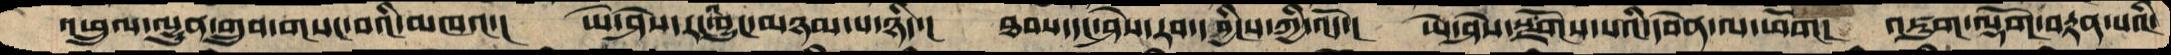འཕྲུལ་ལྷུན་གྲུབ་གསང་བའི་མཁའ་། ཡེ་ཤེས་རང་འབྱུང་མཉམ་པ་ཉིད་། ཐབས་དང་ཤེས་རབ་དབྱིངས་ཀྱི་འོད་། ཡེ་ཤེས་སྫོགས་པའི་དབེན་ལ་ཕོག། འཇུག་ལྡོག་བརྟན་པའི་
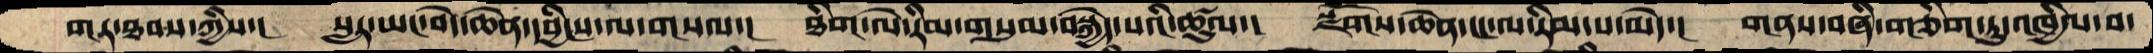གར་ཐབས་ཀྱིས་།   སླར་ཡང་བདེ་ཆེན་དབྱིངས་ལ་གསལ་།   ཐིག་ལེ་རིམ་གསུམ་བསྐྱེད་པའི་ཚུལ་།  སྫོགས་ཆེན་ངང་ལ་རིམ་པ་མེད་།  གནས་བཞི་གཅིག་ཏུ་འཁྱིལ་བ་
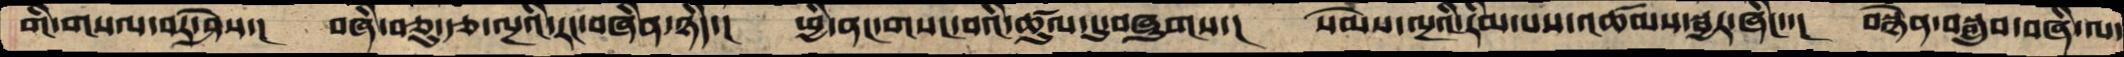གི་གསལ་བར་ཤེས་།    བཞི་བཅུ་རྩ་ལྔའི་རང་བཞིན་ཉིད་།   ཕྱི་ནང་གསང་བའི་ཚུལ་དུ་བཞུགས་།   སེམས་ལྔའི་རིམ་པས་འཚམས་སྦྱར་ཞིང་་།  བསྙེན་བསྒྲུབ་བཞི་ལ་
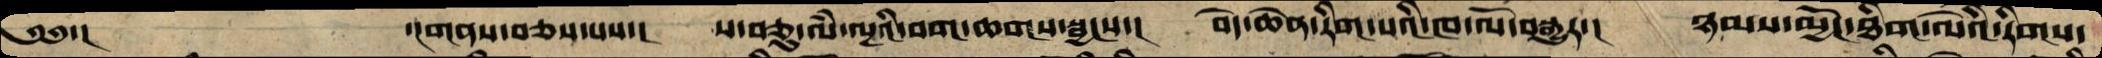༄༅་།                 ་།གནས་བཅས་པས་།   ས་བཅུ་ལཾ་ལྔའི་བག་ཆགས་སྦྱངས་།   བདེ་ཆེན་རིག་པའི་ཁ་ལོ་བསྒྱུར་།  ཉམས་མྱོང་ཐིག་ལེའི་རིགས་
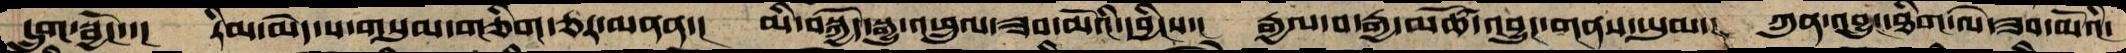དྲུག་སྦྱོང་་།  རིམ་མེད་ས་གསུམ་གཅིག་ཅར་མནན་།  མི་བསྐྱོད་སྒྱུ་འཕྲུལ་ཟབ་མོའི་དབྱིངས་།  རྒྱལ་བ་རྒྱ་མཚོ་འབྱུང་གནས་ཡུམ་།  ཀུན་འབྱུང་ཐིག་ལེ་ཟབ་མོའི་
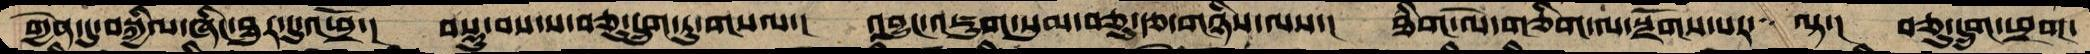གྱིན་དུ་བསྐྱིལ་ཞིང་ཐུར་དུ་འཕྲོ་།  བསྡུ་བས་ས་བཅུ་དྲུག་ཏུ་གསལ་།  འབྱུང་འཇུག་སུམབཅུ་རྩ་གཉིས་ལས་།  ཐིག་ལེ་གཅིག་ལ་སྫོགས་པར་་ ལྟ་།  བཅུ་དྲུག་ཕྲག་
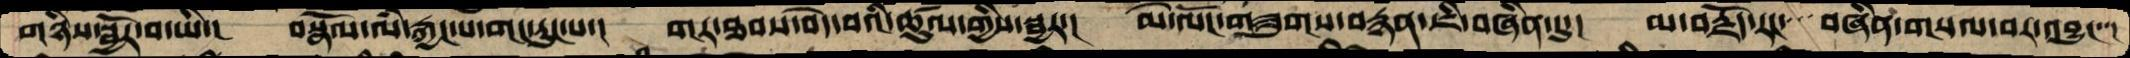གཉིས་སྦྱོར་བ་ཡི་།  བསྣོལ་ལཾ་རྒྱང་པ་གང་རུང་པ་།  གར་ཐབས་བདེ་བའི་ཚུལ་གྱིས་སྦྱར་། མེ་ལོང་གཟུགས་བརྙན་ཇི་བཞིན་དུ་།  མ་བརྗོད་རང་་་་བཞིན་གསལ་བར་འབྱུང་་།
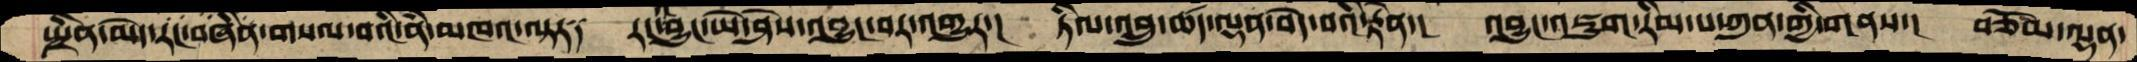སྤྲིན་མེད་རང་བཞིན་གསལ་བའི་ནཾ་མཁའ་ལྟར༑ རང་འབྱུང་ཡེ་ཤེས་འབྱུང་བར་འགྱུར་། ཏིལ་འབྲུ་ཚད་ལྡན་བདེ་བའི་རྟེན་། འབྱུང་འཇུག་རིམ་པ་ཀུན་གྱི་གནས་། བཅོམ་ལྡན་
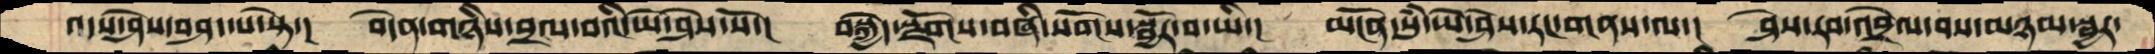འདས་ཤེས་བཤད་པ་སྟེ་།   བདེན་གཉིས་བྲལ་བའི་ཡེ་ཤེས་སོ་།   བསྐྱེད་སྫོགས་བཞི་སོགས་སྦྱོར་བ་ཡི་།  མངོན་སུཾ་ཡེ་ཤེས་རང་གནས་ལ་།  ཤེས་རབ་འབྲེལ་བས་མཉམ་སྦྱར་
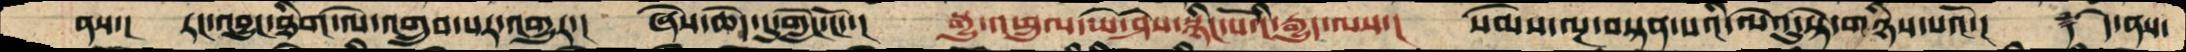ནས་།    རང་འབྱུང་ཐིག་ལེ་འགྲུབ་པར་འགྱུར་།  ཞེས་ཆེད་དུ་གླེང་ངོ་་།  སྒྱུ་འཕྲུལ་ཡེ་ཤེས་སྙིང་པོའི་རྒྱུད་ལས་།  སེམས་ལྔ་བསྟན་པའི་ལེའུ་སྟེ་གཉིས་པའོ་།   ༈ དེ་ནས་
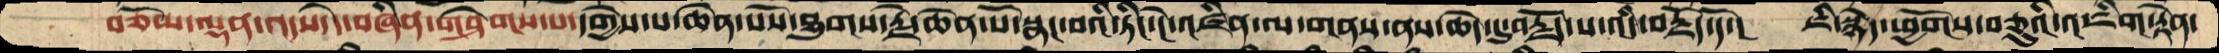བཅོམ་ལྡན་འདས་དེ་བཞིན་གཤེགས་པ་དགྱེས་པ་ཆེན་པོས་ཐུགས་རྗེ་ཆེན་པོ་སྣང་བའི་ཏིང་ངེ་འཛིན་ལ་གནས་ནས་ཆེད་དུ་བརྗོད་པ་འདི་བརྗོད་དོ་།  ཇི་སྙེད་ཕྱོགས་བཅུའི་འཇིག་རྟེན་
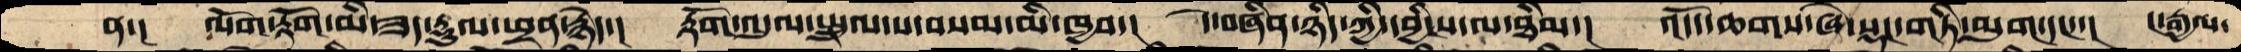ན་།    ལོག་རྟོག་མི་ཟད་རྡུལ་ཕྲན་རྙེད་།   རྟོག་འདུལ་སྤྲུལ་པ་བསམ་མི་ཁྱབ་།  དེ་བཞིན་ཉིད་ཀྱི་དབྱིངས་ལ་ཐིམ་།  འདོད་ཆགས་ཞེ་སྡང་གཏི་མུག་དང་་།  ང་རྒྱལ་
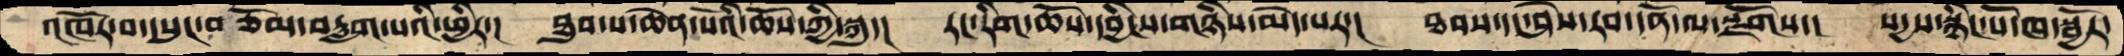འཁོར་བ་དཔུང་བཅོམ་བརླག་པའི་ཕྱིར་།  ཐུབ་པ་ཆེན་པོའི་ཆོས་ཀྱི་སྐུ་།  རང་རིག་ཆོས་དབྱིངས་གཉིས་མེད་པར་།  ཐབས་དང་ཤེས་རབ་དོན་ལ་སྫོགས་།  སདྱས་སྙིང་པོ་ཁ་སྦྱོར་
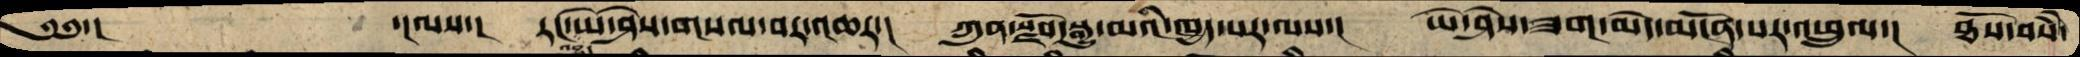༄༅་།    ་།ལས་། རང་འབྱུང་ཡེ་ཤེས་གསལ་བར་འཆར་། ཀུན་སྫོབ་སྒྱུ་མའི་ཁྱད་པར་ལས་། ཡེ་ཤེས་ཟག་མེད་མངོན་པར་འཕྲུལ་། ཐོས་བསཾ་
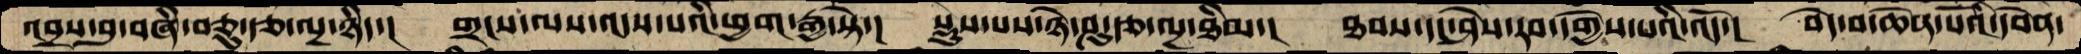འབྲས་བུ་བཞི་བཅུ་རྩ་ལྔ་ཉིད་།  གྲངས་ལས་འདས་པའི་ཕྱག་རྒྱ་སྟེ་།   སྡུས་པས་ཉེ་ཤུ་རྩ་ལྔ་ཐིམ་།  ཐབས་དང་ཤེས་རབ་དགྱེས་པའི་འོད་།  བདེ་བ་ཆེན་པོའི་དབེན་
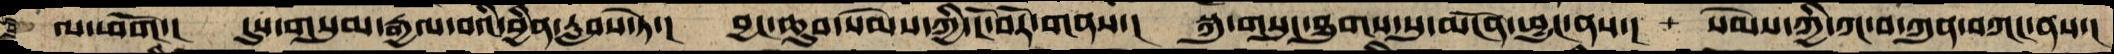ལ་ཕོག་། དུས་གསུམ་རྒྱལ་བའི་བྱིན་རླབས་ཏེ་། བྱང་ཆུབ་སེམས་ཀྱི་ངོ་བོར་གནས་། སྐུ་གསུང་ཐུགས་སུ་མངོན་ཕྱུང་ནས་། སེམས་ཀྱི་ཀ་བ་ཀུན་བཀང་ནས་།
